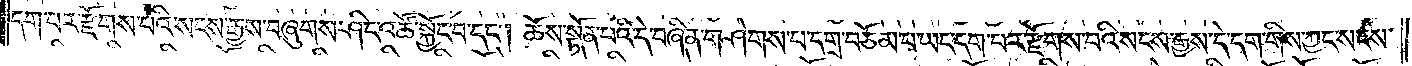དག་པར་རྫོགས་པའི་སངས་རྒྱས་བཞུགས་ཤིང་འཚོ་སྐྱོང་བ་དང༌། ཆོས་སྟོན་པའི་དེ་བཞིན་གཤེགས་པ་དགྲ་བཅོམ་པ་ཡང་དག་པར་རྫོགས་པའི་སངས་རྒྱས་དེ་དག་གིས་ཀྱང་སངས་
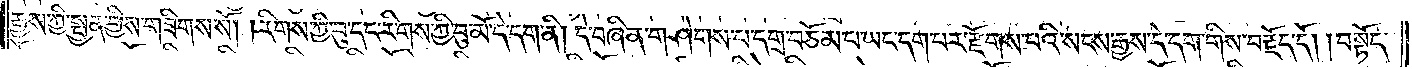རྒྱས་ཀྱི་སྤྱན་གྱིས་གཟིགས་སོ། །རིགས་ཀྱི་བུ་དང་རིགས་ཀྱི་བུ་མོ་དེ་དག་ནི། དེ་བཞིན་གཤེགས་པ་དགྲ་བཅོམ་པ་ཡང་དག་པར་རྫོགས་པའི་སངས་རྒྱས་དེ་དག་གིས་བརྗོད་དོ། །བསྟོད་
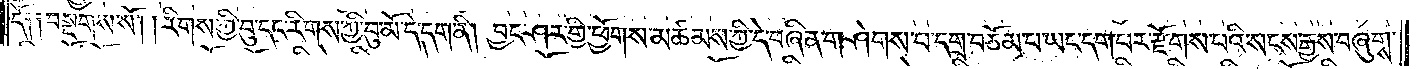དོ༑ ༑བསྔགས་སོ། །རིགས་ཀྱི་བུ་དང་རིགས་ཀྱི་བུ་མོ་དེ་དག་ནི། བྱང་ཤར་གྱི་ཕྱོགས་མཚམས་ཀྱི་དེ་བཞིན་གཤེགས་པ་དགྲ་བཅོམ་པ་ཡང་དག་པར་རྫོགས་པའི་སངས་རྒྱས་བཞུགས་
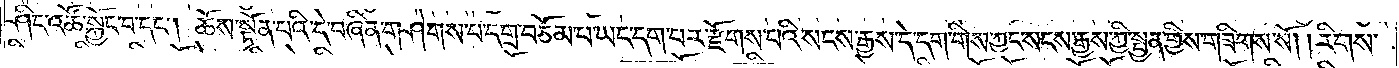ཤིང་འཚོ་སྐྱོང་བ་དང༌། ཆོས་སྟོན་པའི་དེ་བཞིན་གཤེགས་པ་དགྲ་བཅོམ་པ་ཡང་དག་པར་རྫོགས་པའི་སངས་རྒྱས་དེ་དག་གིས་ཀྱང་སངས་རྒྱས་ཀྱི་སྤྱན་གྱིས་གཟིགས་སོ། །རིགས་
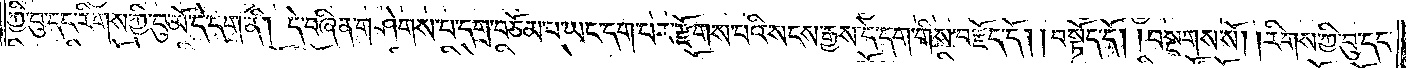ཀྱི་བུ་དང་རིགས་ཀྱི་བུ་མོ་དེ་དག་ནི། དེ་བཞིན་གཤེགས་པ་དགྲ་བཅོམ་པ་ཡང་དག་པར་རྫོགས་པའི་སངས་རྒྱས་དེ་དག་གིས་བརྗོད་དོ། །བསྟོད་དོ། །བསྔགས་སོ། །རིགས་ཀྱི་བུ་དང་
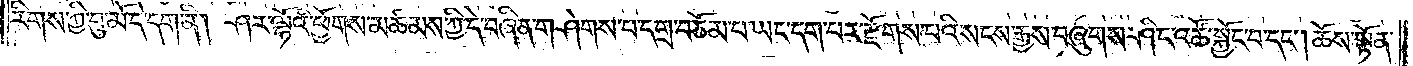རིགས་ཀྱི་བུ་མོ་དེ་དག་ནི། ཤར་ལྷོའི་ཕྱོགས་མཚམས་ཀྱི་དེ་བཞིན་གཤེགས་པ་དགྲ་བཅོམ་པ་ཡང་དག་པར་རྫོགས་པའི་སངས་རྒྱས་བཞུགས་ཤིང་འཚོ་སྐྱོང་བ་དང༌། ཆོས་སྟོན་
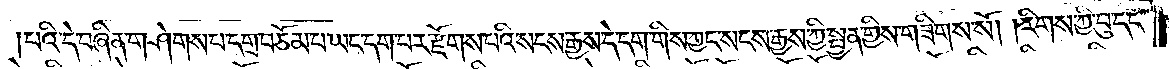པའི་དེ་བཞིན་གཤེགས་པ་དགྲ་བཅོམ་པ་ཡང་དག་པར་རྫོགས་པའི་སངས་རྒྱས་དེ་དག་གིས་ཀྱང་སངས་རྒྱས་ཀྱི་སྤྱན་གྱིས་གཟིགས་སོ། །རིགས་ཀྱི་བུ་དང་
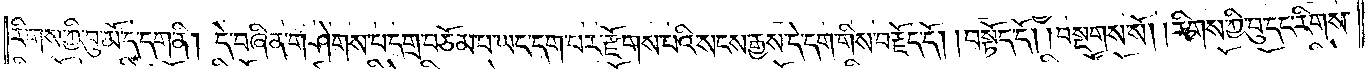རིགས་ཀྱི་བུ་མོ་དེ་དག་ནི། དེ་བཞིན་གཤེགས་པ་དགྲ་བཅོམ་པ་ཡང་དག་པར་རྫོགས་པའི་སངས་རྒྱས་དེ་དག་གིས་བརྗོད་དོ། །བསྟོད་དོ། །བསྔགས་སོ། །རིགས་ཀྱི་བུ་དང་རིགས་
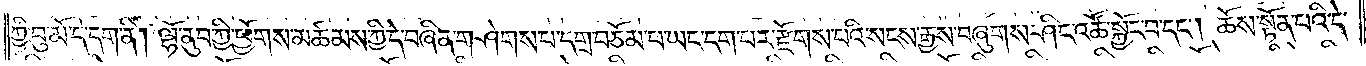ཀྱི་བུ་མོ་དེ་དག་ནི། ལྷོ་ནུབ་ཀྱི་ཕྱོགས་མཚམས་ཀྱི་དེ་བཞིན་གཤེགས་པ་དགྲ་བཅོམ་པ་ཡང་དག་པར་རྫོགས་པའི་སངས་རྒྱས་བཞུགས་ཤིང་འཚོ་སྐྱོང་བ་དང༌། ཆོས་སྟོན་པའི་དེ་
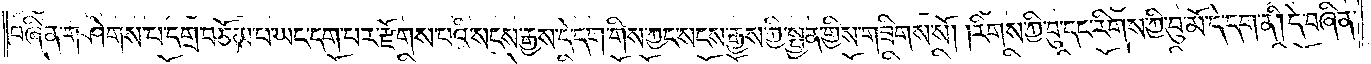བཞིན་གཤེགས་པ་དགྲ་བཅོམ་པ་ཡང་དག་པར་རྫོགས་པའི་སངས་རྒྱས་དེ་དག་གིས་ཀྱང་སངས་རྒྱས་ཀྱི་སྤྱན་གྱིས་གཟིགས་སོ། །རིགས་ཀྱི་བུ་དང་རིགས་ཀྱི་བུ་མོ་དེ་དག་ནི། དེ་བཞིན་
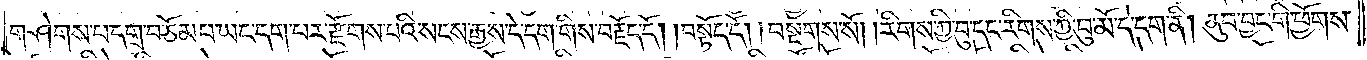གཤེགས་པ་དགྲ་བཅོམ་པ་ཡང་དག་པར་རྫོགས་པའི་སངས་རྒྱས་དེ་དག་གིས་བརྗོད་དོ། །བསྟོད་དོ། །བསྔགས་སོ། །རིགས་ཀྱི་བུ་དང་རིགས་ཀྱི་བུ་མོ་དེ་དག་ནི། ནུབ་བྱང་གི་ཕྱོགས་
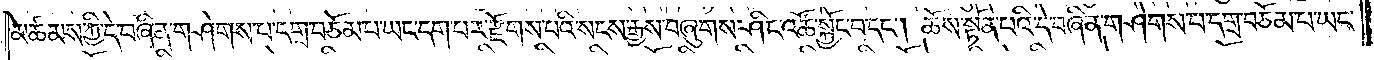མཚམས་ཀྱི་དེ་བཞིན་གཤེགས་པ་དགྲ་བཅོམ་པ་ཡང་དག་པར་རྫོགས་པའི་སངས་རྒྱས་བཞུགས་ཤིང་འཚོ་སྐྱོང་བ་དང༌། ཆོས་སྟོན་པའི་དེ་བཞིན་གཤེགས་པ་དགྲ་བཅོམ་པ་ཡང་
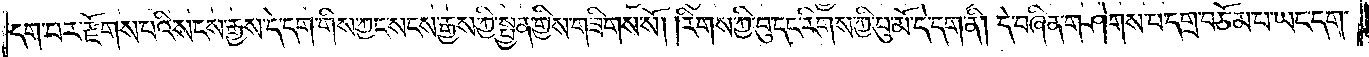དག་པར་རྫོགས་པའི་སངས་རྒྱས་དེ་དག་གིས་ཀྱང་སངས་རྒྱས་ཀྱི་སྤྱན་གྱིས་གཟིགས་སོ། །རིགས་ཀྱི་བུ་དང་རིགས་ཀྱི་བུ་མོ་དེ་དག་ནི། དེ་བཞིན་གཤེགས་པ་དགྲ་བཅོམ་པ་ཡང་དག་
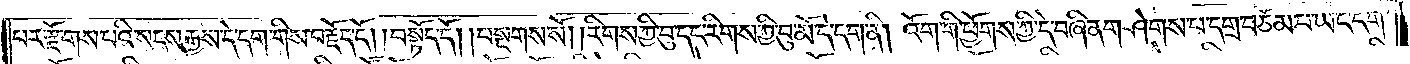པར་རྫོགས་པའི་སངས་རྒྱས་དེ་དག་གིས་བརྗོད་དོ། །བསྟོད་དོ། །བསྔགས་སོ། །རིགས་ཀྱི་བུ་དང་རིགས་ཀྱི་བུ་མོ་དེ་དག་ནི། འོག་གི་ཕྱོགས་ཀྱི་དེ་བཞིན་གཤེགས་པ་དགྲ་བཅོམ་པ་ཡང་དག་
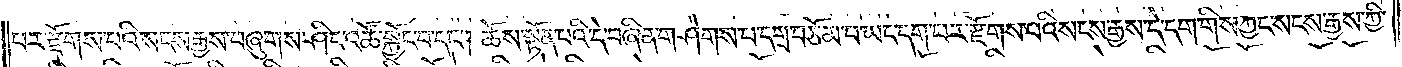པར་རྫོགས་པའི་སངས་རྒྱས་བཞུགས་ཤིང་འཚོ་སྐྱོང་བ་དང༌། ཆོས་སྟོན་པའི་དེ་བཞིན་གཤེགས་པ་དགྲ་བཅོམ་པ་ཡང་དག་པར་རྫོགས་པའི་སངས་རྒྱས་དེ་དག་གིས་ཀྱང་སངས་རྒྱས་ཀྱི་
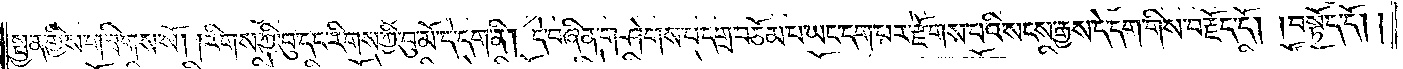སྤྱན་གྱིས་གཟིགས་སོ། །རིགས་ཀྱི་བུ་དང་རིགས་ཀྱི་བུ་མོ་དེ་དག་ནི། དེ་བཞིན་གཤེགས་པ་དགྲ་བཅོམ་པ་ཡང་དག་པར་རྫོགས་པའི་སངས་རྒྱས་དེ་དག་གིས་བརྗོད་དོ། །བསྟོད་དོ། །
